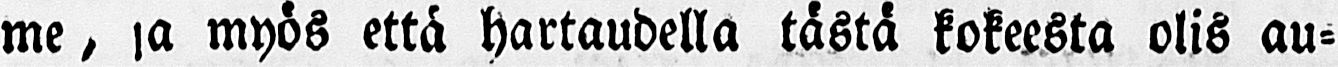me, ja myös että hartaudella tästä kokeesta olis au-
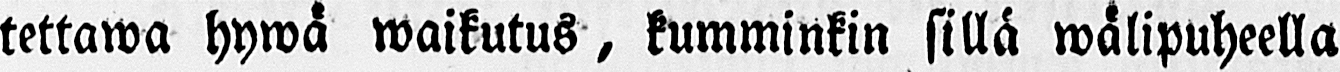tettawa hywä waikutus, kumminkin sillä wälipuheella
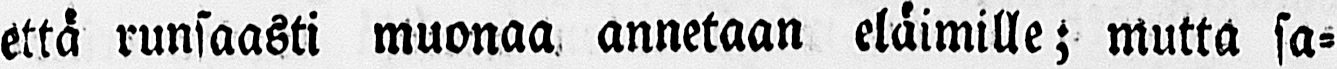että runsaasti muonaa annetaan eläimille; mutta sa-
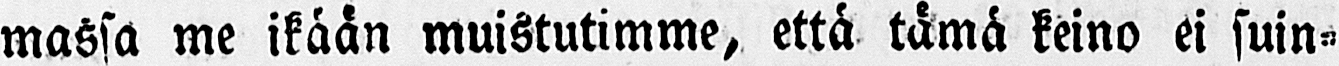massa me ikään muistutimme, että tämä keino ei suin-
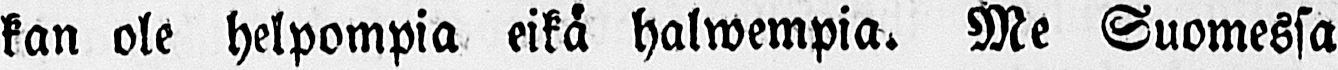kan ole helpompia eikä halwempia. Me Suomessa
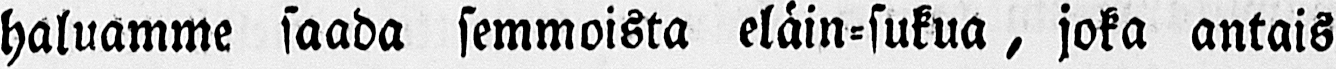haluamme saada semmoista eläin-sukua, joka antais
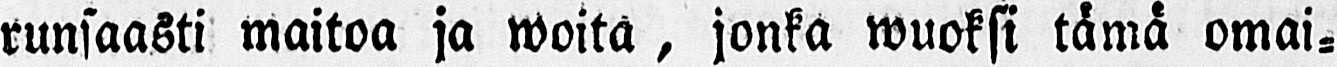runsaasti maitoa ja woita, jonka wuoksi tämä omai-
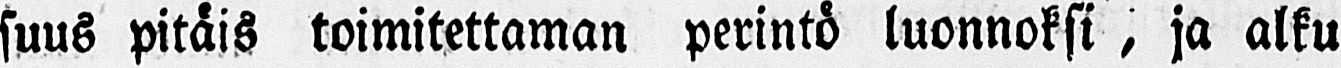suus pitäis toimitettaman perintö luonnoksi, ja alku
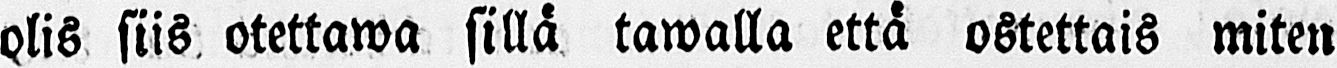olis siis otettawa sillä tawalla että ostettais miten
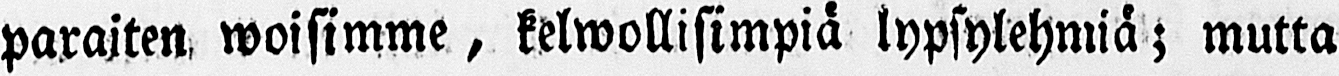paraiten woisimme, kelwollisimpiä lypsylehmiä; mutta
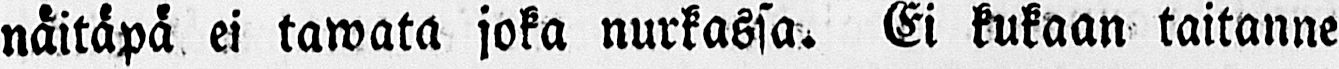näitäpä ei tawata joka nurkassa. Ei kukaan taitanne
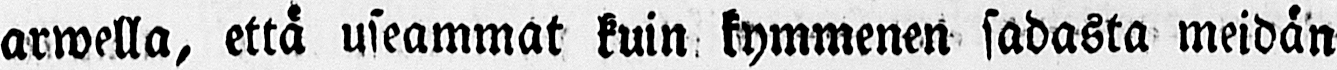arwella, että useammat kuin kymmenen sadasta meidän
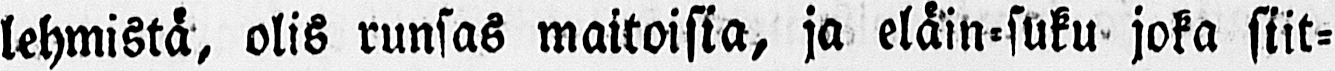lehmistä, olis runsas maitoisia, ja eläin-suku joka siit-
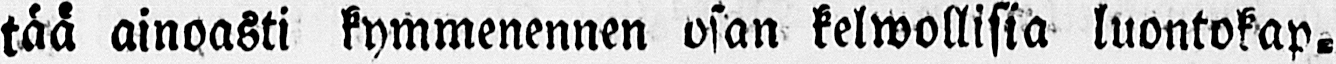tää ainoasti kymmenennen osan kelwollisia luontokap-
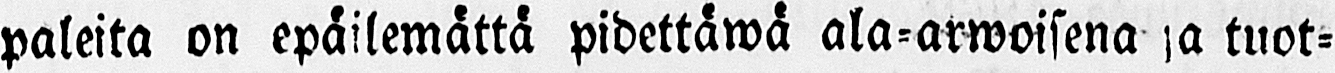paleita on epäilemättä pidettäwä ala-arwoisena ja tuot-
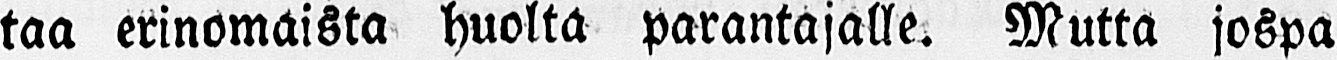taa erinomaista huolta parantajalle. Mutta jospa
